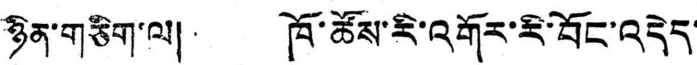ཉིན་གཅིག་ལ། ཁོ་ཚོས་རི་འགོར་རི་བོང་འདེད་
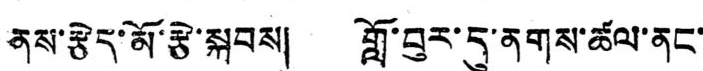ནས་རྩེད་མོ་རྩེ་སྐབས། གློ་བུར་དུ་ནགས་ཚལ་ནང་
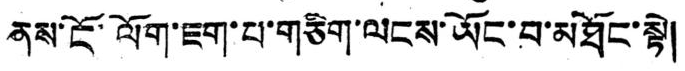ནས་ངོ་ལོག་ཇག་པ་གཅིག་ལངས་ཡོང་བ་མཐོང་སྟེ།
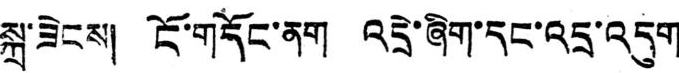སྐྲ་ཟེངས། ངོ་གདོང་ནག འདྲེ་ཞིག་དང་འདྲ་འདུག
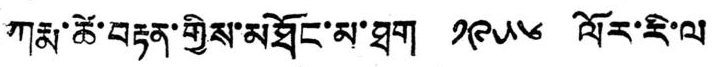ཀརྨ་ཚེ་བརྟན་གྱིས་མཐོང་མ་ཐག ༡༩༥༦ ལོར་རི་ལ
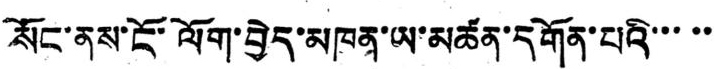སོང་ནས་ངོ་ལོག་བྱེད་མཁན་ཡ་མཚན་དགོན་པའི་་་་་
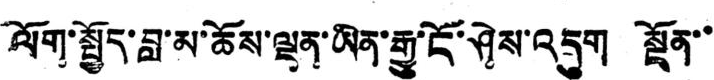ལོག་སྤྱོད་བླ་མ་ཆོས་ལྡན་ཡིན་རྒྱུ་ངོ་ཤེས་འདུག སྔོན་་
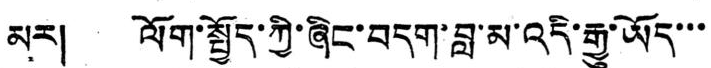མར། ལོག་སྤྱོད་ཀྱི་ཞིང་བདག་བླ་མ་འདི་རྒྱུ་ཡོད་་་
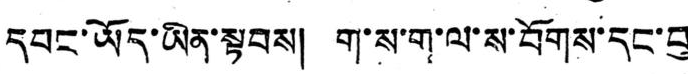དབང་ཡོད་ཡིན་སྟབས། ག་ས་ག་ལ་ས་བོགས་དང་བུ་
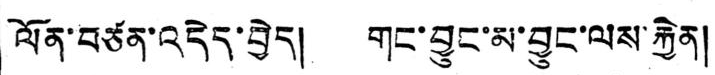ལོན་བཙན་འདེད་བྱེད། གང་བྱུང་མ་བྱུང་ལས་རྐྱེན།
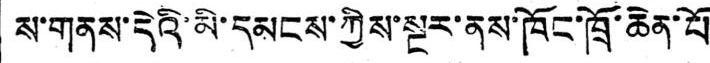ས་གནས་དེའི་མི་དམངས་ཀྱིས་སྔར་ནས་ཁོང་ཁྲོ་ཆེན་པོ
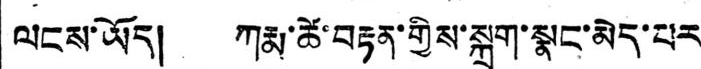ལངས་ཡོད། ཀརྨ་ཚེ་བརྟན་གྱིས་སྐྲག་སྣང་མེད་པར་
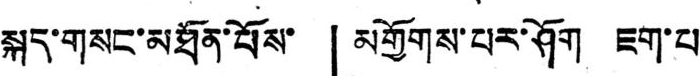སྐད་གསང་མཐོན་པོས་ 「མགྱོགས་པར་ཤོག ཇག་པ
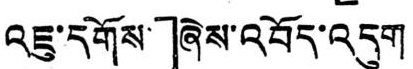འཇུ་དགོས་」ཞེས་འབོད་འདུག
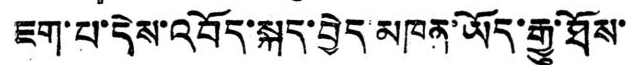ཇག་པ་དེས་འབོད་སྐད་བྱེད་མཁན་ཡོད་རྒྱུ་ཐོས་
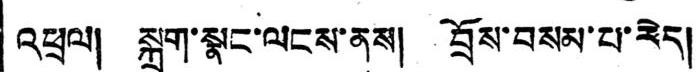འཕྲལ། སྐྲག་སྣང་ལངས་ནས། བྲོས་བསམ་པ་རེད།
